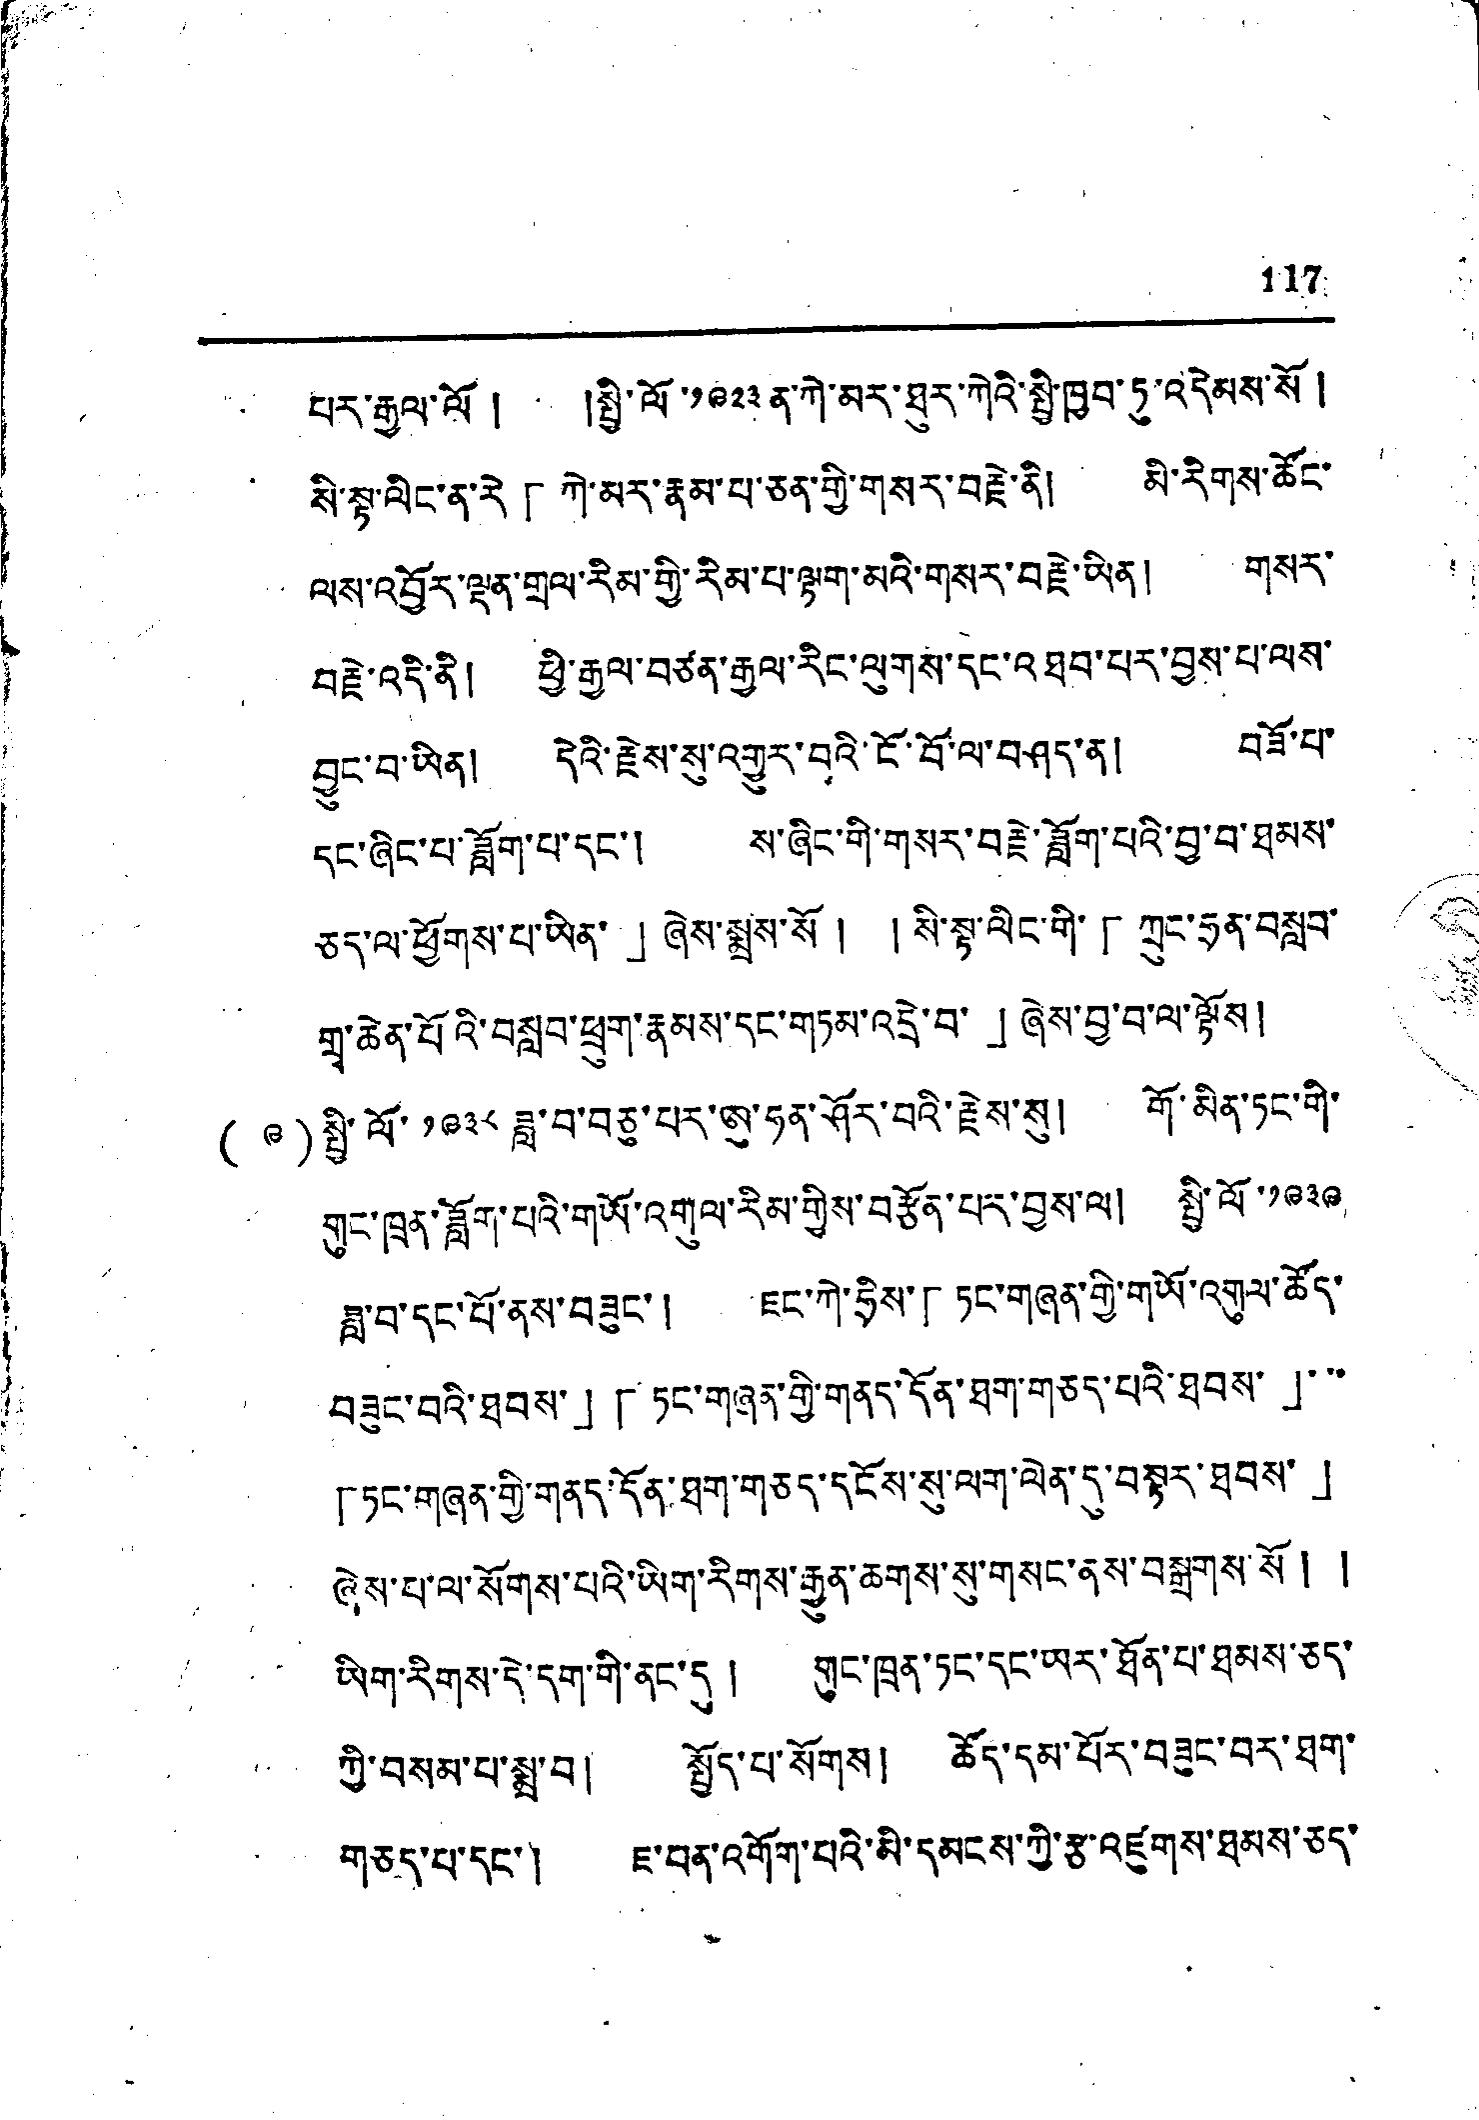117
པར་རྒྱལ་ལོ། །སྤྱི་ལོ་༡༩༢༣ ན་ཀེ་མར་ཐུར་ཀེའི་སྤྱི་ཁྱབ་ཏུ་འདེམས་སོ།
སི་སྟ་ལིང་ན་རེ「ཀེ་མར་རྣམ་པ་ཅན་གྱི་གསར་བརྗེ་ནི། མི་རིགས་ཚོང་
ལས་འབྱོར་ལྡན་གྲལ་རིམ་གྱི་རིམ་པ་ལྟག་མའི་གསར་བརྗེ་ཡིན། གསར་
བརྗེ་འདི་ནི། ཕྱི་རྒྱལ་བཙན་རྒྱལ་རིང་ལུགས་དང་འཐབ་པར་བྱས་པ་ལས་
བྱུང་བ་ཡིན། དེའི་རྗེས་སུ་འགྱུར་བའི་ངོ་བོ་ལ་བཤད་ན། བཟོ་པ་
དང་ཞིང་པ་ཟློག་པ་དང་། ས་ཞིང་གི་གསར་བརྗེ་ཟློག་པའི་བྱ་བ་ཐམས་
ཅད་ལ་ཕྱོགས་པ་ཡིན་」ཞེས་སྨྲས་སོ། །སི་སྟ་ལིང་གི་「ཀྲུང་ཧྲན་བསླབ་
གྲྭ་ཆེན་པོའི་བསླབ་ཕྲུག་རྣམས་དང་གཏམ་འདྲེ་བ་」ཞེས་བྱ་བ་ལ་ལྟོས།
(༩)སྤྱི་ལོ་༡༩༣༨ ཟླ་བ་བཅུ་པར་ཨུ་ཧན་ཤོར་བའི་རྗེས་སུ། གོ་མིན་ཏང་གི་
གུང་ཁྲན་ཟློག་པའི་གཡོ་འགུལ་རིམ་གྱིས་བརྩོན་པར་བྱས་ལ། སྤྱི་ལོ་༡༩༣༩
ཟླ་བ་དང་པོ་ནས་བཟུང་། ཇང་ཀེ་ཧྲིས་「ཏང་གཞན་གྱི་གཡོ་འགུལ་ཚོད་
བཟུང་བའི་ཐབས་」「ཏང་གཞན་གྱི་གནད་དོན་ཐག་གཅད་པའི་ཐབས་」་་་
「ཏང་གཞན་གྱི་གནད་དོན་ཐག་གཅད་དངོས་སུ་ལག་ལེན་དུ་བསྟར་ཐབས་」
ཞེས་པ་ལ་སོགས་པའི་ཡིག་རིགས་རྒྱུན་ཆགས་སུ་གསང་ནས་བསྒྲགས་སོ། །
ཡིག་རིགས་དེ་དག་གེ་ནང་དུ། གུང་ཁྲན་ཏང་དང་ཡར་ཐོན་པ་ཐམས་ཅད་
ཀྱི་བསམ་པ་སྨྲ་བ། སྤྱོད་པ་སོགས། ཆོད་དམ་པོར་བཟུང་བར་ཐག་
གཅད་པ་དང་། ཇ་བན་འགོག་པའི་མི་དམངས་ཀྱི་རྩ་འཛུགས་ཐམས་ཅད་
